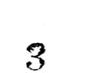3
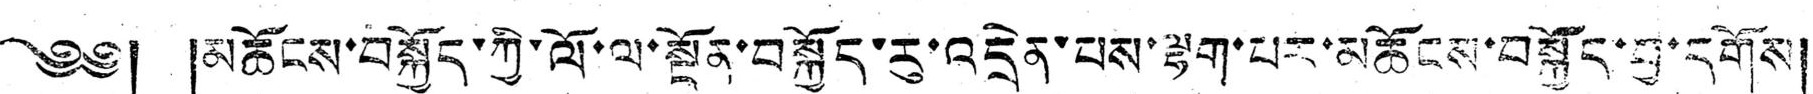༄༅། །མཆོངས་བསྐྱོད་ཀྱི་ལོ་ལ་སྔོན་བསྐྱོད་རུ་འདྲེན་པས་ལྷག་པར་མཆོངས་བསྐྱོད་བྱ་དགོས།
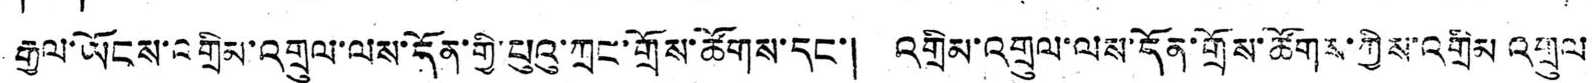རྒྱལ་ཡོངས་འགྲིམ་འགྲུལ་ལས་དོན་གྱི་པུའུ་ཀྲང་གྲོས་ཚོགས་དང་། འགྲིམ་འགྲུལ་ལས་དོན་གྲོས་ཚོགས་ཀྱིས་འགྲིམ འགྲུལ
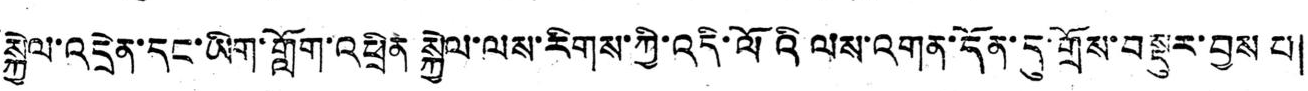སྐྱེལ་འདྲེན་དང་ཡིག་གློག་འཕྲིན སྐྱེལ་ལས་རིགས་ཀྱི་འདི་ལོའི ལས་འགན་དོན་དུ་གྲོས་བསྡུར་བྱས པ།
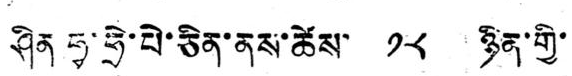ཤིན ཧྭ་ཧྲེ་པེ་ཅིན་ནས་ཚེས་ ༡༨ ཉིན་གྱི་
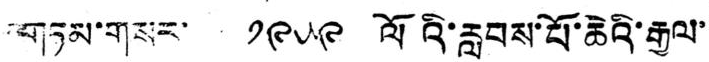གཏམ་གསར་ ༡༩༥༩ ལོའི་རླབས་པོ་ཆེའི་རྒྱལ་་
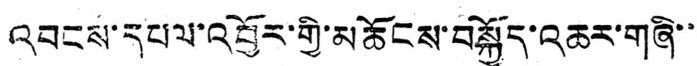འབངས་དཔལ་འབྱོར་གྱི་མཆོངས་བསྐྱོད་འཆར་གཞི་་་
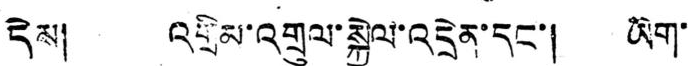དེས། འགྲིམ་འགྲུལ་སྐྱེལ་འདྲེན་དང་། ཡིག་་
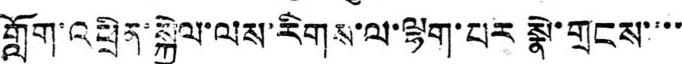གློག་འཕྲིན་སྐྱེལ་ལས་རིགས་ལ་ལྷག་པར སྣེ་གྲངས་་་་་
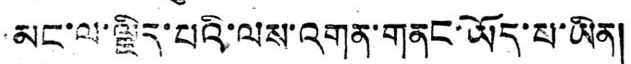མང་ལ་ལྗིད་པའི་ལས་འགན་གནང་ཡོད་པ་ཡིན།
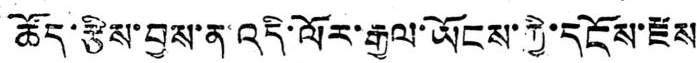ཚོད་རྩིས་བྱས་ན་འདི་ལོར་རྒྱལ་ཡོངས་ཀྱི་དངོས་རྫས་
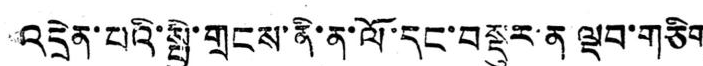འདྲེན་པའི་སྤྱི་གྲངས་ནི་ན་ལོ་དང་བསྡུར་ན ལྡབ་གཅིག
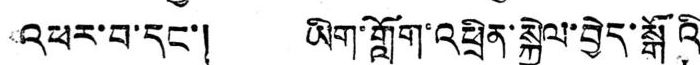འཕར་བ་དང་། ཡིག་གློག་འཕྲིན་སྐྱེལ་བྱེད་སྒོའི་
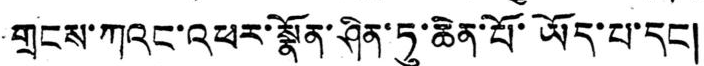གྲངས་ཀའང་འཕར་སྣོན་ཤིན་ཏུ་ཆེན་པོ་ཡོད་པ་དང །
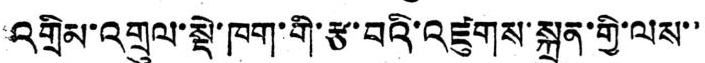འགྲིམ་འགྲུལ་སྡེ་ཁག་གི་རྩ་བའི་འཛུགས་སྐྲུན་གྱི་ལས་་
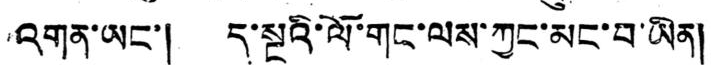འགན་ཡང་། ད་སྔའི་ལོ་གང་ལས་ཀྱང་མང་བ་ཡིན།
